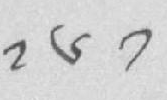༡༦༡
